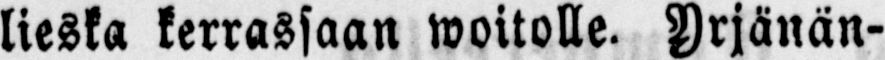lieska kerrassaan woitolle. Yrjänän-
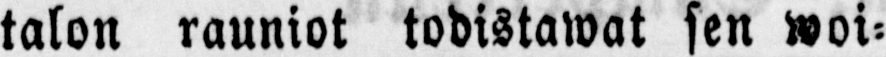talon rauniot todistawat sen woi-
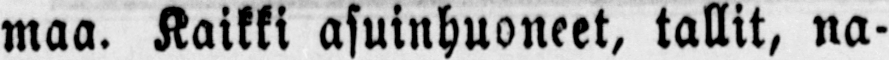maa. Kaikki asuinhuoneet, tallit, na-
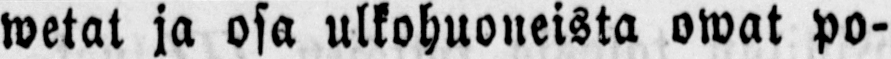wetat ja osa ulkohuoneista owat po-
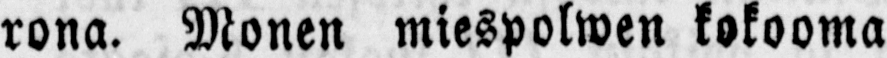rona. Monen miespolwen kokooma
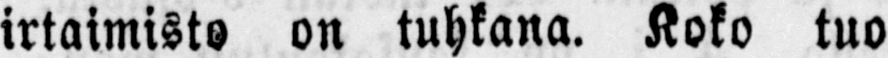irtaimisto on tuhkana. Koko tuo
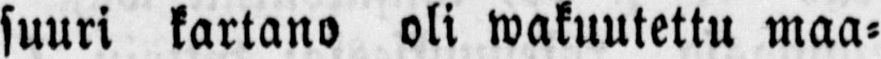suuri kartano oli wakuutettu maa-
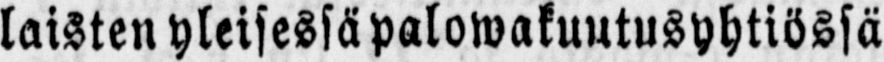laisten yleisessä palowakuutusyhtiössä
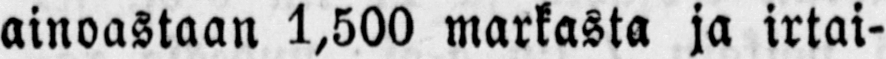ainoastaan 1,500 markasta ja irtai-
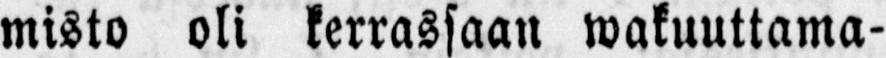misto oli kerrassaan wakuuttama-
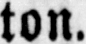ton.
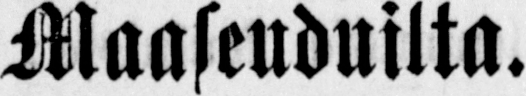Maaseuduilta.
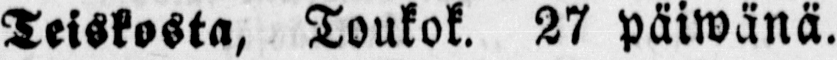Teiskosta, Toukok. 27 päiwänä.
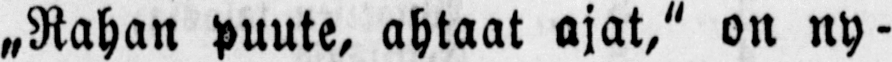„Rahan puute, ahtaat ajat," on ny-
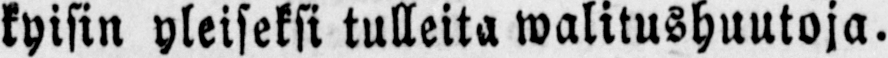kyisin yleiseksi tulleita walitushuutoja.
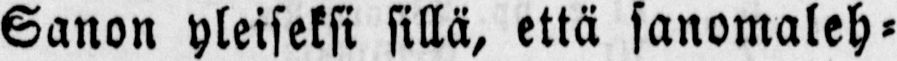Sanon yleiseksi sillä, että sanomaleh-
